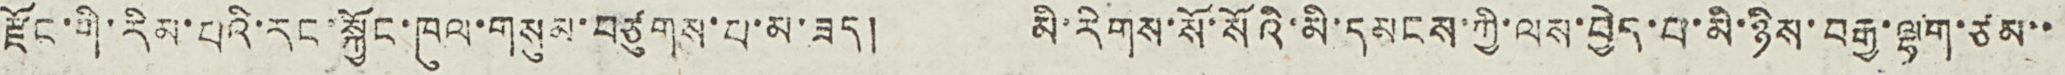རྫོང་གི་རིམ་པའི་རང་སྐྱོང་ཁུལ་གསུམ་བཙུགས་པ་མ་ཟད། མི་རིགས་སོ་སོའི་མི་དམངས་ཀྱི་ལས་བྱེད་པ་མི་ཉིས་བརྒྱ་ལྷག་ཙམ་་
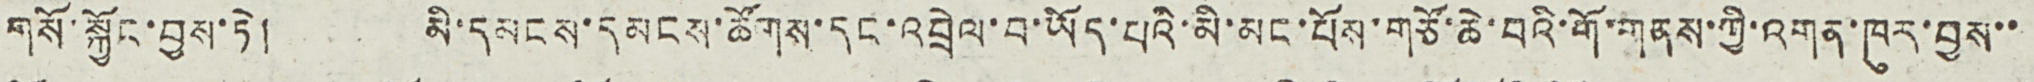གསོ་སྐྱོང་བྱས་ཏེ། མི་དམངས་དམངས་ཚོགས་དང་འབྲེལ་བ་ཡོད་པའི་མི་མང་པོས་གཙོ་ཆེ་བའི་གོ་གནས་ཀྱི་འགན་ཁུར་བྱས་་
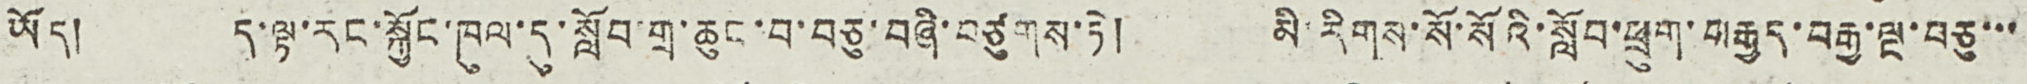ཡོད། ད་ལྟ་རང་སྐྱོང་ཁུལ་དུ་སློབ་གྲ་ཆུང་བ་བཅུ་བཞི་བཙུགས་ཏེ། མི་རིགས་སོ་སོའི་སློབ་ཕྲུག་བརྒྱད་བརྒྱ་ལྔ་བཅུ་་་
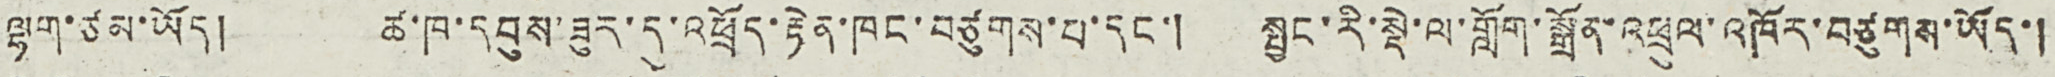ལྷག་ཙམ་ཡོད། ཚ་ཁ་དབུས་ཟུར་དུ་འཕྲོད་རྟེན་ཁང་བཙུགས་པ་དང་། སྤྱང་རི་སྡེ་ལ་གློག་སྒྲོན་འཕྲུལ་འཁོར་བཙུགས་ཡོད་།
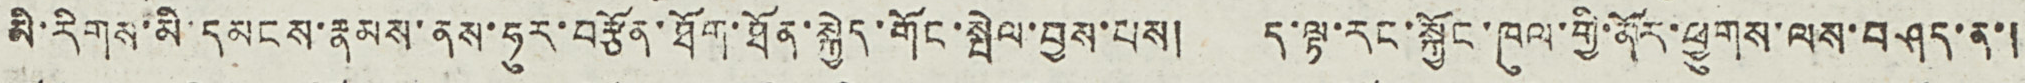མི་རིགས་མི་དམངས་རྣམས་ནས་ཧུར་བརྩཧོན་ཐོག་ཐོན་སྐྱེད་གོང་སྤེལ་བྱས་པས། ད་ལྟ་རང་སྐྱོང་ཁུལ་གྱི་ནོར་ཕྱུགས་ལས་བཤད་ན་།
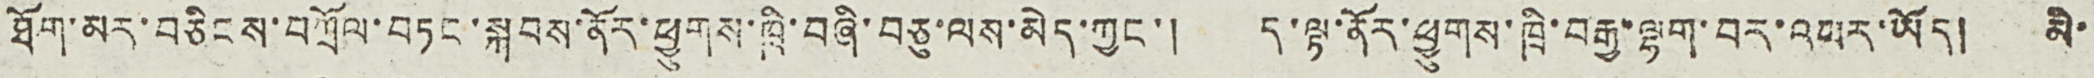ཐོག་མར་བཅིངས་བཀྲོལ་བཏང་སྐབས་ནོར་ཕྱུགས་ཁྲི་བཞི་བཅུ་ལས་མེད་ཀྱང་། ད་ལྟ་ནོར་ཕྱུགས་ཁྲི་བརྒྱ་ལྷག་བར་འཕར་ཡོད། མི་
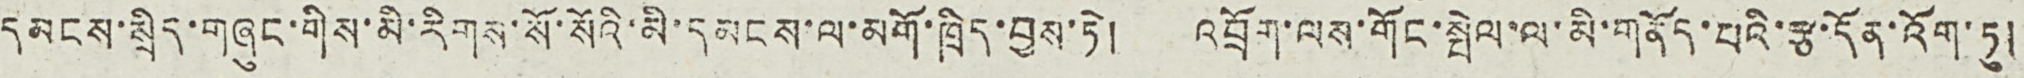དམངས་སྲིད་གཞུང་གིས་མི་རིགས་སོ་སོའི་མི་དམངས་ལ་མགོ་ཁྲིད་བྱས་ཏེ། འབྲོག་ལས་གོང་སྤེལ་ལ་མི་གནོད་པའི་རྩ་དོན་འོག་ཏུ།
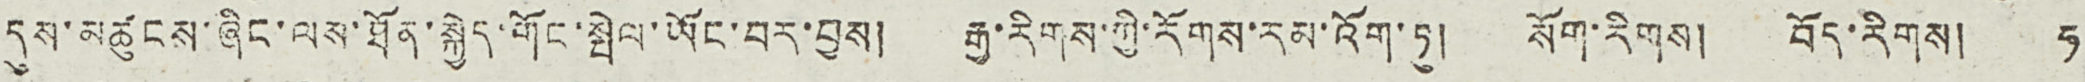དུས་མཚུངས་ཞིང་ལས་ཐོན་སྐྱེད་གོང་སྤེལ་ཡོང་བར་བྱས། རྒྱ་རིགས་ཀྱི་རོགས་རམ་འོག་ཏུ། སོག་རིགས། བོད་རིགས། ཧ
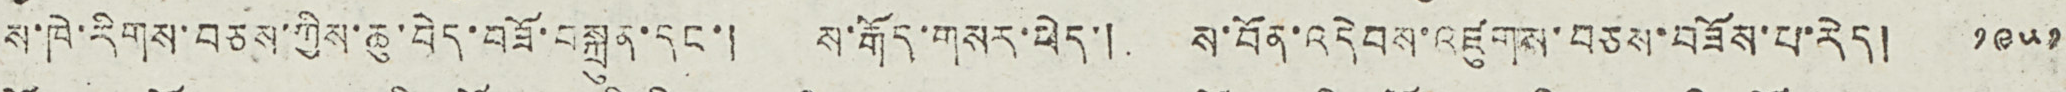ས་ཁེ་རིགས་བཅས་ཀྱིས་ཆུ་བེད་བཟོ་བསྐྲུན་དང་། ས་རྒོད་གསར་ཕེད་། ས་བོན་འདེབས་འཛུགས་བཅས་བཟོས་པ་རེད། ༡༩༥༡
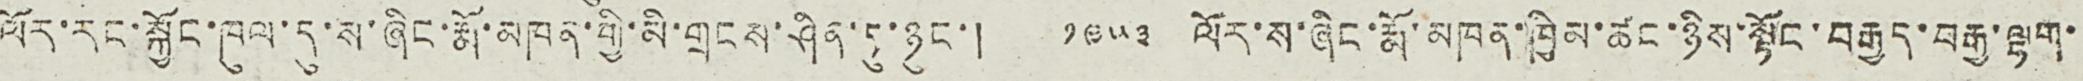ལོར་རང་སྐྱོང་ཁུལ་དུ་ས་ཞིང་རྨོ་མཁན་གྱི་མི་གྲངས་ཤིན་ཏུ་ཉུང་། ༡༩༥༣ ལོར་ས་ཞིང་རྨོ་མཁན་ཁྱིམ་ཚང་ཉིས་སྟོང་བརྒྱད་བརྒྱ་ལྷག་
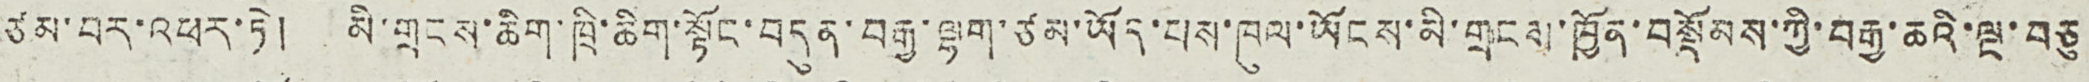ཙམ་བར་འཕར་ཏེ། མི་གྲངས་ཆིག་ཁྲི་ཆིག་སྟོང་བདུན་བརྒྱ་ལྷག་ཙམ་ཡོད་པས་ཁུལ་ཡོངས་མི་གྲངས་ཁྱིན་བསྡོམས་ཀྱི་བརྒྱ་ཆའི་ལྔ་བཅུ
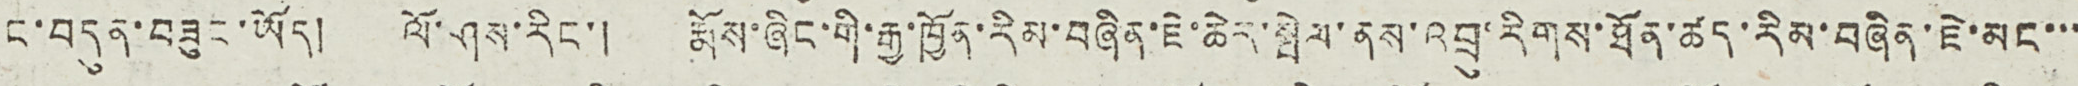ང་བདུན་བཟུང་ཡོད། ལོ་ཤས་རིང་། རྨོས་ཞིང་གི་རྒྱ་ཁྱོན་རིམ་བཞིན་ཇེ་ཆེར་སྤེལ་ནས་འབྲུ་རིགས་ཐོན་ཚད་རིམ་བཞིན་ཇེ་མང་་་
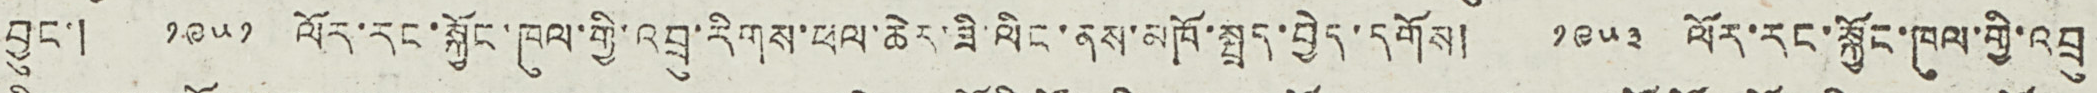བྱུང་། ༡༩༥༡ ལོར་རང་སྐྱོང་ཁུལ་གྱི་འབྲུ་རིགས་ཕལ་ཆེར་ཟི་ལིང་ནས་མཁོ་སྤྲད་བྱེད་དགོས། ༡༩༥༣ ལོར་རང་སྐྱོང་ཁུལ་གྱི་འབྲུ
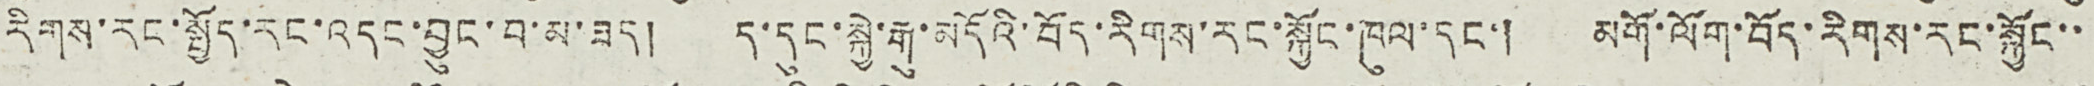རིགས་རང་སྤྱོད་རང་འདང་བྱུང་བ་མ་ཟད། ད་དུང་སྐྱེ་རྒུ་མདོའི་བོད་རིགས་རང་སྐྱོང་ཁུལ་དང་། མགོ་ལོག་བོད་རིགས་རང་སྐྱོང་་
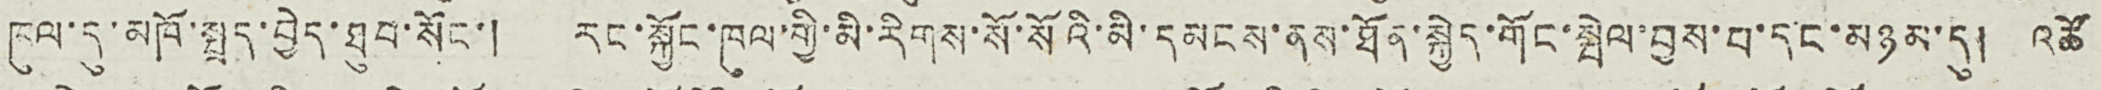ཁུལ་དུ་མཁོ་སྤྲད་བྱེད་ཐུབ་སོང་། རང་སྐྱོང་ཁུལ་གྱི་མི་རིགས་སོ་སོའི་མི་དམངས་ནས་ཐོན་སྐྱེད་གོང་སྤེལ་བྱས་པ་དང་མཉམ་དུ། འཚོ
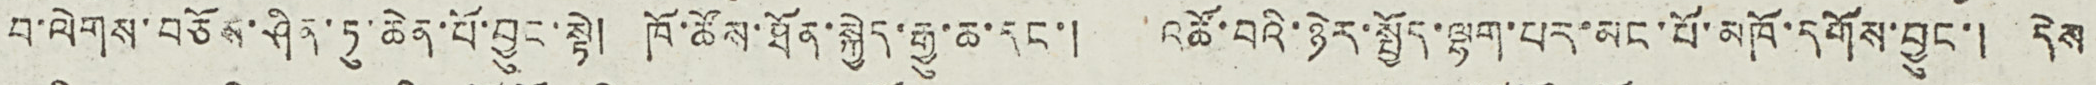བ་ལེགས་བཅོས་ཤིན་ཏུ་ཆེན་པོ་བྱུང་སྟེ། ཁོ་ཚོས་ཐོན་སྐྱེད་རྒྱུ་ཆ་དང་། འཚོ་བའི་ཉེར་སྤྱོད་ལྷག་པར་མང་པོ་མཁོ་དགོས་བྱུང་། དེས
